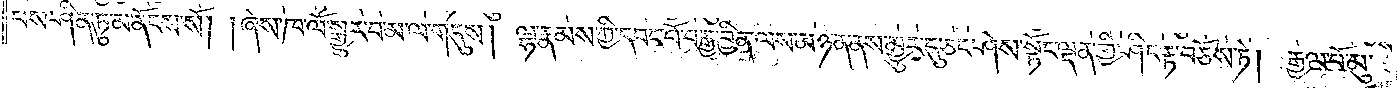པས་ཤིན་ཏུ་མ་ནོངས་སོ། །ཞེས་ཁ་ལོ་སྒྱུར་བ་མ་ལ་གདུས། ལྷ་རྣམས་ཀྱི་དབང་པོ་བརྒྱ་བྱིན་ལས་མཉན་ནས་མྱུར་དུ་ཅང་ཤེས་སྟོང་ལྡན་གྱི་ཤིང་རྟ་བཅོས་ཏེ། རྒྱལ་པོ་མུ་
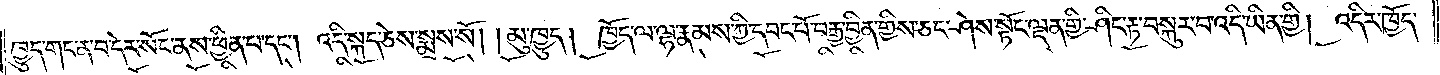ཁྱུད་གང་ན་བ་དེར་སོང་ནས་ཕྱིན་པ་དང༌། འདི་སྐད་ཅེས་སྨྲས་སོ། །མུ་ཁྱུད། ཁྱོད་ལ་ལྷ་རྣམས་ཀྱིས་དབང་པོ་བརྒྱ་བྱིན་གྱིས་ཅང་ཤེས་སྟོང་ལྡན་གྱི་ཤིང་རྟ་བསྐུར་བ་འདི་ཡིན་གྱི། འདིར་ཁྱོད་
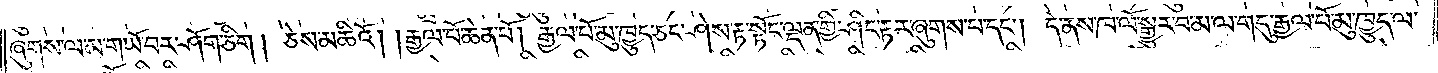ཞུགས་ལ་མ་གཡོ་བར་ཤོག་ཅིག །ཅེས་མཆིའོ། །རྒྱལ་པོ་ཆེན་པོ། རྒྱལ་པོ་མུ་ཁྱུད་ཅང་ཤེས་རྟ་སྟོང་ལྡན་གྱི་ཤིང་རྟར་ཞུགས་པ་དང༌། དེ་ནས་ཁ་ལོ་སྒྱུར་བ་མ་ལ་གདུ་རྒྱལ་པོ་མུ་ཁྱུད་ལ་
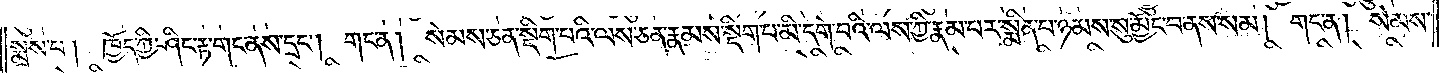སྨྲས་པ། ཁྱོད་ཀྱི་ཤིང་རྟ་གང་ནས་དྲང༌། གང་ན། སེམས་ཅན་སྡིག་པའི་ལས་ཅན་རྣམས་སྡིག་པ་མི་དགེ་བའི་ལས་ཀྱི་རྣམ་པར་སྨིན་པ་ཉམས་སུ་མྱོང་བ་ནས་སམ། གང་ན། སེམས་
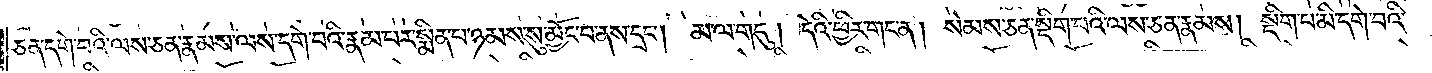ཅན་དགེ་བའི་ལས་ཅན་རྣམས་ལས་དགེ་བའི་རྣམ་པར་སྨིན་པ་ཉམས་སུ་མྱོང་བ་ནས་དྲང༌། མ་ལ་གདུ། དེའི་ཕྱིར་གང་ན། སེམས་ཅན་སྡིག་པའི་ལས་ཅན་རྣམས། སྡིག་པ་མི་དགེ་བའི་
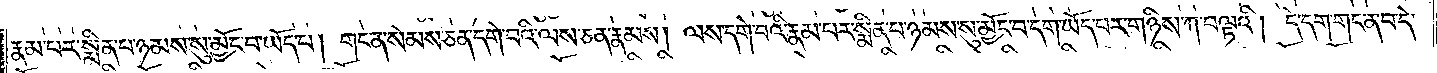རྣམ་པར་སྨིན་པ་ཉམས་སུ་མྱོང་བ་ཡོད་པ། གང་ན་སེམས་ཅན་དགེ་བའི་ལས་ཅན་རྣམས། ལས་དགེ་བའི་རྣམ་པར་སྨིན་པ་ཉམས་སུ་མྱོང་བ་དག་ཡོད་པར་གཉིས་ཀ་བལྟའི། དེ་དག་གང་ན་བ་དེ་
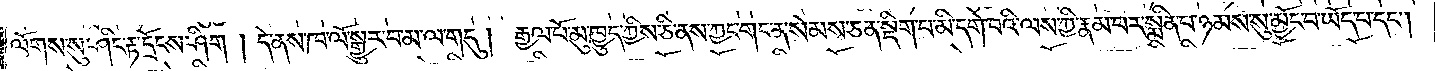ལོགས་སུ་ཤིང་རྟ་དྲོངས་ཤིག །དེ་ནས་ཁ་ལོ་སྒྱུར་བ་མ་ལ་གདུ། རྒྱལ་པོ་མུ་ཁྱུད་ཀྱིས་ཅི་ནས་ཀྱང་གང་ན་སེམས་ཅན་སྡིག་པ་མི་དགེ་བའི་ལས་ཀྱི་རྣམ་པར་སྨིན་པ་ཉམས་སུ་མྱོང་བ་ཡོད་པ་དང༌།
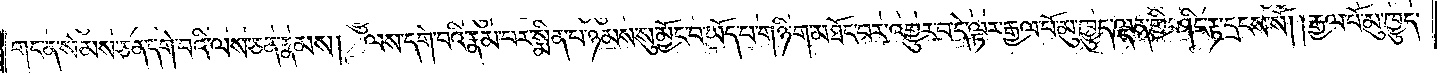གང་ན་སེམས་ཅན་དགེ་བའི་ལས་ཅན་རྣམས། ལས་དག་པའི་རྣམ་པར་སྨིན་པ་ཉམས་སུ་མྱོང་བ་ཡོད་པ་གཉི་ག་མཐོང་བར་འགྱུར་བ་དེ་ལྟར་རྒྱལ་པོ་མུ་ཁྱུད་ལྡན་གྱི་ཤིང་རྟ་དྲངས་སོ། །རྒྱལ་པོ་མུ་ཁྱུད་
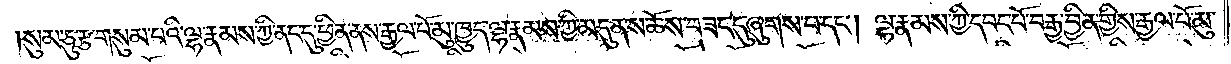།སུམ་ཅུ་རྩ་གསུམ་པའི་ལྷ་རྣམས་ཀྱི་ནང་དུ་ཕྱིན་ནས་རྒྱལ་པོ་མུ་ཁྱུད་ལྷ་རྣམས་ཀྱི་མདུན་ས་ཆོས་བཟང་དུ་ཞུགས་པ་དང༌། ལྷ་རྣམས་ཀྱི་དབང་པོ་བརྒྱ་བྱིན་གྱིས་རྒྱལ་པོ་མུ་
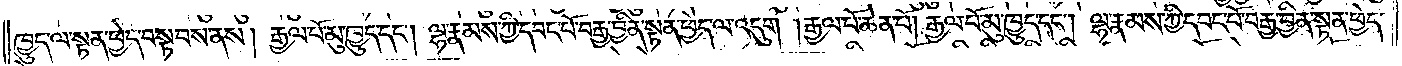ཁྱུད་ལ་སྟན་ཕྱེད་བསྟབས་ནས། རྒྱལ་པོ་མུ་ཁྱུད་དང༌། ལྷ་རྣམས་ཀྱི་དབང་པོ་བརྒྱ་བྱིན་སྟན་ཕྱེད་ལ་འདུག །རྒྱལ་པོ་ཆེན་པོ། རྒྱལ་པོ་མུ་ཁྱུད་དང༌། ལྷ་རྣམས་ཀྱི་དབང་པོ་བརྒྱ་བྱིན་སྟན་ཕྱེད་
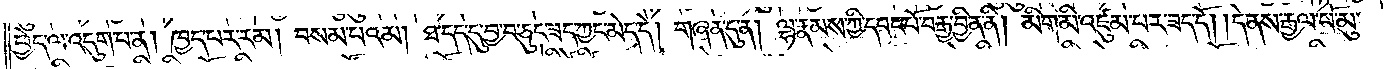ཕྱེད་ལ་འདུག་པ་ན། ཁྱད་པར་རམ། བསམ་པའམ། ཐ་དད་དུ་བྱ་བ་ཅུང་ཟད་ཀྱང་མེད་དེ། གཞན་དུ་ན། ལྷ་རྣམས་ཀྱི་དབང་པོ་བརྒྱ་བྱིན་ནི། མིག་མི་འཛུམ་པར་ཟད་དོ། །དེ་ནས་རྒྱལ་པོ་མུ་
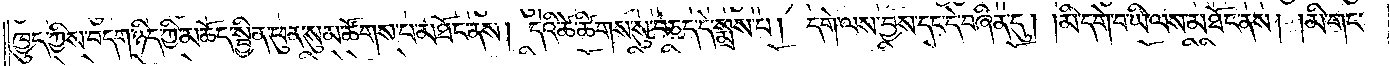ཁྱུད་ཀྱིས་བདག་ཉིད་ཀྱི་མཆོད་སྦྱིན་ཕུན་སུམ་ཚོགས་པ་མཐོང་ནས། དེའི་ཚེ་ཚིགས་སུ་བཅད་དེ་སྨྲས་པ། དགེ་ལས་བྱས་དང་དེ་བཞིན་དུ། མི་དགེ་བ་ཡི་ལས་མཐོང་ནས། །མི་གང་
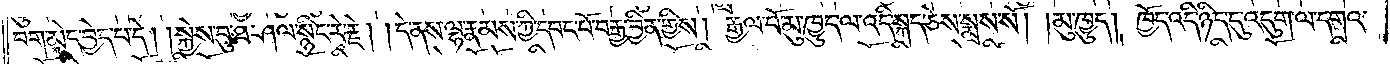བག་མེད་བྱེད་པ་དེ། །སྐྱེས་བུ་ཐ་ཤལ་སྙིང་རེ་རྗེ། །དེ་ནས་ལྷ་རྣམས་ཀྱི་དབང་པོ་བརྒྱ་བྱིན་གྱིས། རྒྱལ་པོ་མུ་ཁྱུད་ལ་འདི་སྐད་ཅེས་སྨྲས་སོ། །མུ་ཁྱུད། ཁྱོད་འདི་ཉིད་དུ་འདུག་ལ་དགའ་
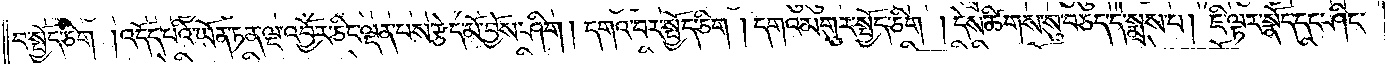བ་སྤྱོད་ཅིག །འདོད་པའི་ཡོན་ཏན་ལྔ་འབྱོར་ཅིང་ལྡན་པས་རྩེ་མོ་བྱོས་ཤིག །དགའ་བར་སྤྱོད་ཅིག །དགའ་མགུར་སྤྱོད་ཅིག །དེས་ཚིགས་སུ་བཅད་དེ་སྨྲས་པ། ཇི་ལྟར་སྣོད་དང་ཤིང་
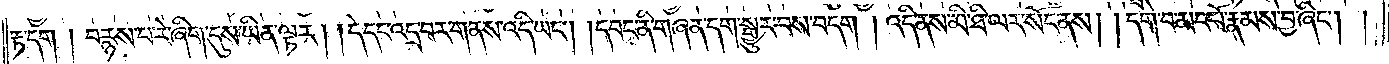རྟ་དག །བརྙས་པ་རེ་ཞིག་དུས་ཡིན་ལྟར། དེ་དང་འདྲ་བར་གནས་འདི་ཡང༌། །དབང་ནི་གཞན་དག་སྒྱུར་བས་བདག །འདི་ནས་མི་ཐི་ལར་སོང་ནས། །དགེ་བ་མང་པོ་རྣམས་བྱ་ཞིང༌། །
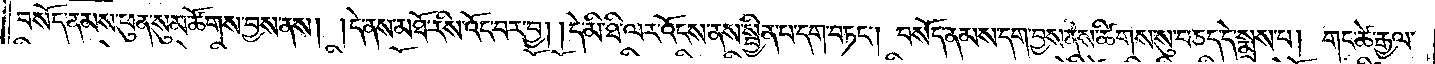བསོད་ནམས་ཕུན་སུམ་ཚོགས་བྱས་ནས། །དེ་ནས་མཐོ་རིས་འོང་བར་བྱ། །དེ་མི་ཐི་ལར་འོངས་ནས་སྦྱིན་པ་དག་བཏང༌། བསོད་ནམས་དག་བྱས་ནས་ཚིགས་སུ་བཅད་དེ་སྨྲས་པ། གང་ཚེ་རྒྱལ་
